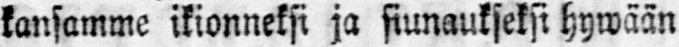kansamme ikionneksi ja siunaukseksi hywään
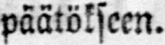päätökseen.
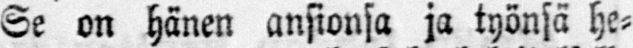Se on hänen ansionsa ja työnsä he-
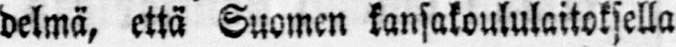delmä, että Suomen kansakoululaitoksella
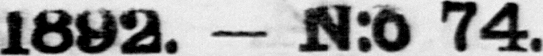1892. — N:o 74.
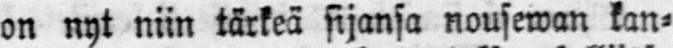on nyt niin tärkeä sijansa nousewan kan-
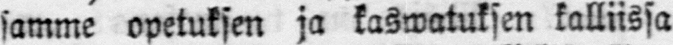samme opetuksen ja kaswatuksen kalliissa
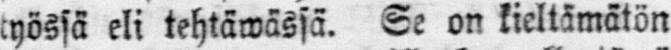työssä eli tehtäwässä. Se on kieltämätön
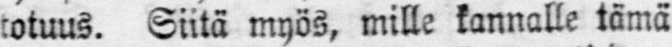totuus. Siitä myös, mille kannalle tämä
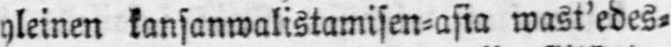yleinen kansanwalistamisen-asia wast'edes-
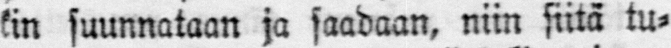kin suunnataan ja saadaan, niin siitä tu-
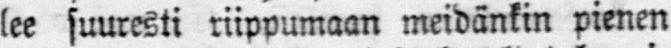lee suuresti riippumaan meidänkin pienen
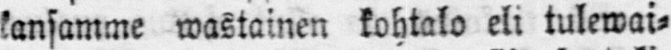kansamme wastainen kohtalo eli tulewai-
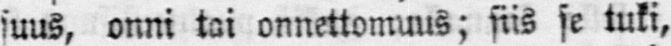suus, onni tai onnettomuus; siis se tuki,
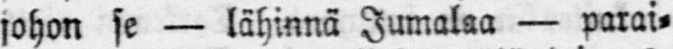johon se — lähinnä Jumalaa — parai-
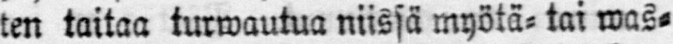ten taitaa turwautua niissä myötä-tai was-
